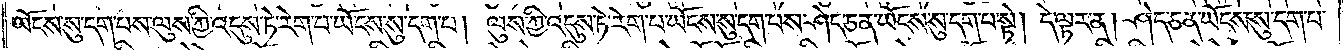ཡོངས་སུ་དག་པས་ལུས་ཀྱི་འདུས་ཏེ་རེག་པ་ཡོངས་སུ་དག་པ། ལུས་ཀྱི་འདུས་ཏེ་རེག་པ་ཡོངས་སུ་དག་པས་ཤེད་ཅན་ཡོངས་སུ་དག་པ་སྟེ། དེ་ལྟར་ན། ཤེད་ཅན་ཡོངས་སུ་དག་པ་
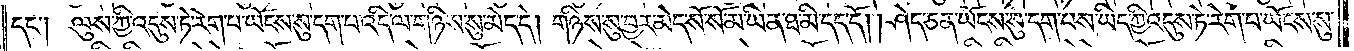དང༌། ལུས་ཀྱི་འདུས་ཏེ་རེག་པ་ཡོངས་སུ་དག་པ་འདི་ལ་གཉིས་སུ་མེད་དེ། གཉིས་སུ་བྱར་མེད་སོ་སོ་མ་ཡིན་ཐ་མི་དད་དོ། །ཤེད་ཅན་ཡོངས་སུ་དག་པས་ཡིད་ཀྱི་འདུས་ཏེ་རེག་པ་ཡོངས་སུ་
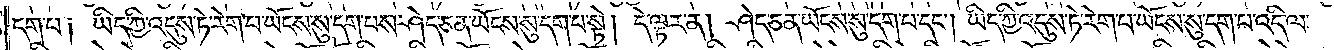དག་པ༑ ཡིད་ཀྱི་འདུས་ཏེ་རེག་པ་ཡོངས་སུ་དག་པས་ཤེད་ཅན་ཡོངས་སུ་དག་པ་སྟེ། དེ་ལྟར་ན། ཤེད་ཅན་ཡོངས་སུ་དག་པ་དང༌། ཡིད་ཀྱི་འདུས་ཏེ་རེག་པ་ཡོངས་སུ་དག་པ་འདི་ལ་
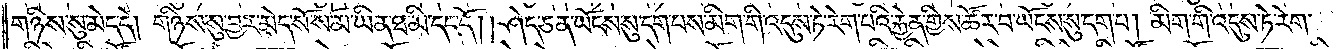གཉིས་སུ་མེད་དེ། གཉིས་སུ་བྱར་མེད་སོ་སོ་མ་ཡིན་ཐ་མི་དད་དོ། ། ཤེད་ཅན་ཡོངས་སུ་དག་པས་མིག་གི་འདུས་ཏེ་རེག་པའི་རྐྱེན་གྱིས་ཚོར་བ་ཡོངས་སུ་དག་པ། མིག་གི་འདུས་ཏེ་རེག་
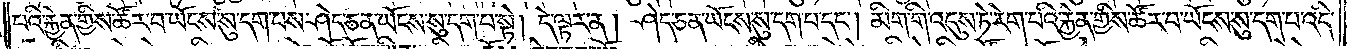པའི་རྐྱེན་གྱིས་ཚོར་བ་ཡོངས་སུ་དག་པས་ཤེད་ཅན་ཡོངས་སུ་དག་པ་སྟེ། དེ་ལྟར་ན། ཤེད་ཅན་ཡོངས་སུ་དག་པ་དང༌། མིག་གི་འདུས་ཏེ་རེག་པའི་རྐྱེན་གྱིས་ཚོར་བ་ཡོངས་སུ་དག་པ་འདི་
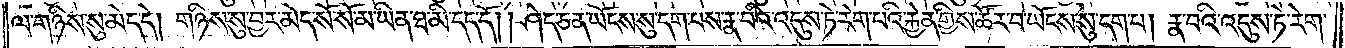ལ་གཉིས་སུ་མེད་དེ། གཉིས་སུ་བྱར་མེད་སོ་སོ་མ་ཡིན་ཐ་མི་དད་དོ། །ཤེད་ཅན་ཡོངས་སུ་དག་པས་རྣ་བའི་འདུས་ཏེ་རེག་པའི་རྐྱེན་གྱིས་ཚོར་བ་ཡོངས་སུ་དག་པ། རྣ་བའི་འདུས་ཏེ་རེག་
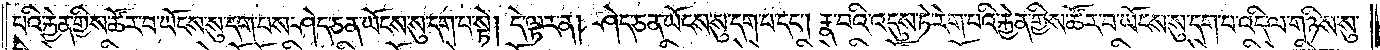པའི་རྐྱེན་གྱིས་ཚོར་བ་ཡོངས་སུ་དག་པས་ཤེད་ཅན་ཡོངས་སུ་དག་པ་སྟེ། དེ་ལྟར་ན། ཤེད་ཅན་ཡོངས་སུ་དག་པ་དང༌། རྣ་བའི་འདུས་ཏེ་རེག་པའི་རྐྱེན་གྱིས་ཚོར་བ་ཡོངས་སུ་དག་པ་འདི་ལ་གཉིས་སུ་
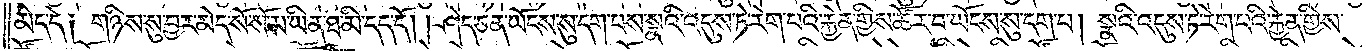མེད་དེ༑ གཉིས་སུ་བྱར་མེད་སོ་སོ་མ་ཡིན་ཐ་མི་དད་དོ། །ཤེད་ཅན་ཡོངས་སུ་དག་པས་སྣའི་འདུས་ཏེ་རེག་པའི་རྐྱེན་གྱིས་ཚོར་བ་ཡོངས་སུ་དག་པ། སྣའི་འདུས་ཏེ་རེག་པའི་རྐྱེན་གྱིས་
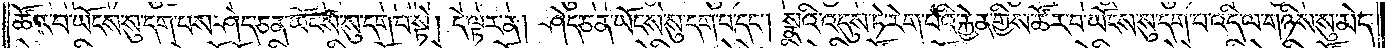ཚོར་བ་ཡོངས་སུ་དག་པས་ཤེད་ཅན་ཡོངས་སུ་དག་པ་སྟེ། དེ་ལྟར་ན། ཤེད་ཅན་ཡོངས་སུ་དག་པ་དང༌། སྣའི་འདུས་ཏེ་རེག་པའི་རྐྱེན་གྱིས་ཚོར་བ་ཡོངས་སུ་དག་པ་འདི་ལ་གཉིས་སུ་མེད་
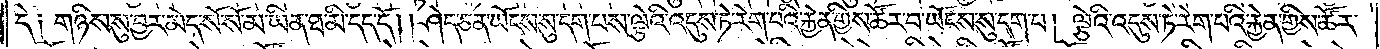དེ༑ གཉིས་སུ་བྱར་མེད་སོ་སོ་མ་ཡིན་ཐ་མི་དད་དོ། །ཤེད་ཅན་ཡོངས་སུ་དག་པས་ལྕེའི་འདུས་ཏེ་རེག་པའི་རྐྱེན་གྱིས་ཚོར་བ་ཡོངས་སུ་དག་པ། ལྕེའི་འདུས་ཏེ་རེག་པའི་རྐྱེན་གྱིས་ཚོར་
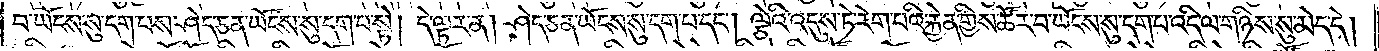བ་ཡོངས་སུ་དག་པས་ཤེད་ཅན་ཡོངས་སུ་དག་པ་སྟེ། དེ་ལྟར་ན། ཤེད་ཅན་ཡོངས་སུ་དག་པ་དང༌། ལྕེའི་འདུས་ཏེ་རེག་པའི་རྐྱེན་གྱིས་ཚོར་བ་ཡོངས་སུ་དག་པ་འདི་ལ་གཉིས་སུ་མེད་དེ།
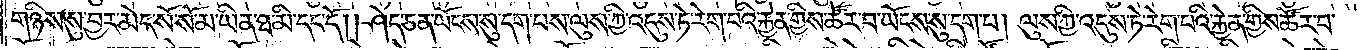གཉིས་སུ་བྱར་མེད་སོ་སོ་མ་ཡིན་ཐ་མི་དད་དོ། །ཤེད་ཅན་ཡོངས་སུ་དག་པས་ལུས་ཀྱི་འདུས་ཏེ་རེག་པའི་རྐྱེན་གྱིས་ཚོར་བ་ཡོངས་སུ་དག་པ། ལུས་ཀྱི་འདུས་ཏེ་རེག་པའི་རྐྱེན་གྱིས་ཚོར་བ་
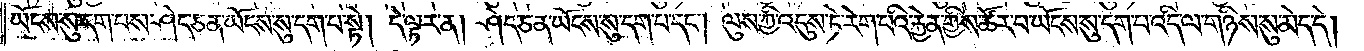ཡོངས་སུ་དག་པས་ཤེད་ཅན་ཡོངས་སུ་དག་པ་སྟེ། དེ་ལྟར་ན། ཤེད་ཅན་ཡོངས་སུ་དག་པ་དང༌། ལུས་ཀྱི་འདུས་ཏེ་རེག་པའི་རྐྱེན་གྱིས་ཚོར་བ་ཡོངས་སུ་དག་པ་འདི་ལ་གཉིས་སུ་མེད་དེ།
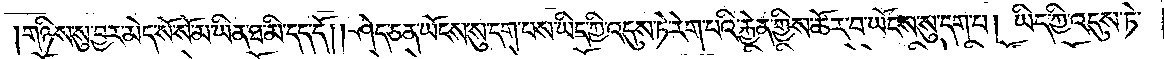གཉིས་སུ་བྱར་མེད་སོ་སོ་མ་ཡིན་ཐ་མི་དད་དོ། །ཤེད་ཅན་ཡོངས་སུ་དག་པས་ཡིད་ཀྱི་འདུས་ཏེ་རེག་པའི་རྐྱེན་གྱིས་ཚོར་བ་ཡོངས་སུ་དག་པ། ཡིད་ཀྱི་འདུས་ཏེ་
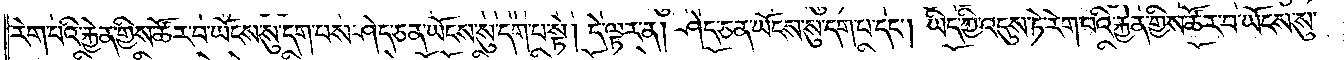རེག་པའི་རྐྱེན་གྱིས་ཚོར་བ་ཡོངས་སུ་དག་པས་ཤེད་ཅན་ཡོངས་སུ་དག་པ་སྟེ། དེ་ལྟར་ན། ཤེད་ཅན་ཡོངས་སུ་དག་པ་དང༌། ཡིད་ཀྱི་འདུས་ཏེ་རེག་པའི་རྐྱེན་གྱིས་ཚོར་བ་ཡོངས་སུ་
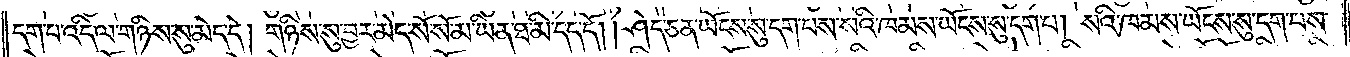དག་པ་འདི་ལ་གཉིས་སུ་མེད་དེ། གཉིས་སུ་བྱར་མེད་སོ་སོ་མ་ཡིན་ཐ་མི་དད་དོ། །ཤེད་ཅན་ཡོངས་སུ་དག་པས་སའི་ཁམས་ཡོངས་སུ་དག་པ། སའི་ཁམས་ཡོངས་སུ་དག་པས་
